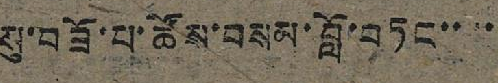སུ་བཟོ་པ་ཚོས་བསམ་བློ་བཏང་་་་
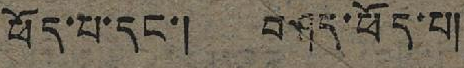ཕོད་པ་དང་། བཤད་ཕོད་པ།
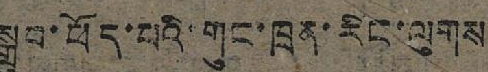སྒྲུབ་ཕོད་པའི་གུང་ཁྲན་རིང་ལུགས
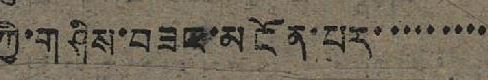ཀྱི་གཤིས་བཟང་མངོན་པར་་་་་་་་་
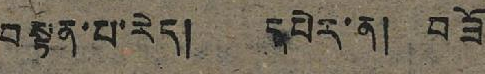བསྟན་པ་རེད། དཔེར་ན། བཟོ
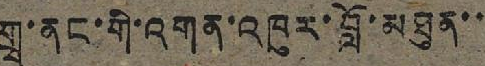གྲྭ་ནང་གི་འགན་འཁུར་བློ་མཐུན་་
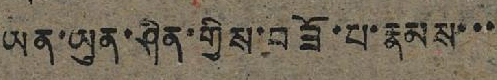ཡན་ཡུན་ཤིན་གྱིས་བཟོ་པ་རྣམས་་་
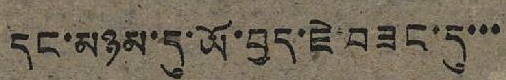དང་མཉམ་དུ་ཡོ་བྱད་ཇེ་བཟང་དུ་་་
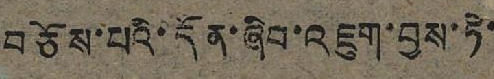བཅོས་པའི་དོན་ཞིབ་འཇུག་བྱས་ཏེ་
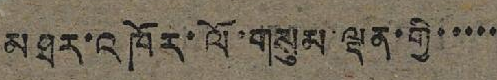མཐར་འཁོར་ལོ་གསུམ་ལྡན་གྱི་་་་་
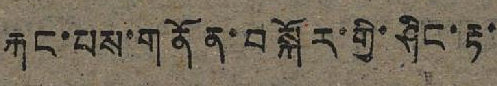རྐང་པས་གནོན་བསྐོར་གྱི་ཤིང་རྟ་
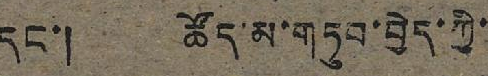དང་། ཚོད་མ་གཏུབ་བྱེད་ཀྱི་
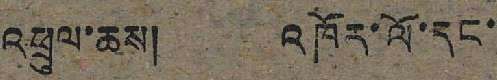འཕྲུལ་ཆས། འཁོར་ལོ་དང་
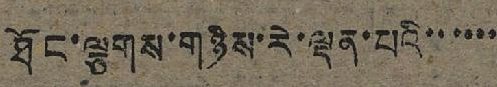ཐོང་ལྕགས་གཉིས་རེ་ལྡན་པའི་་་་་་
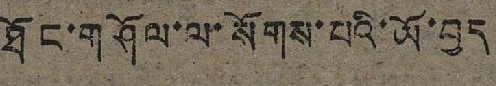ཐོང་གཤོལ་ལ་སོགས་པའི་ཡོ་བྱད
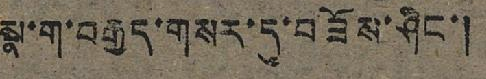སྣ་ག་བརྒྱད་གསར་དུ་བཟོས་ཤིང་།
